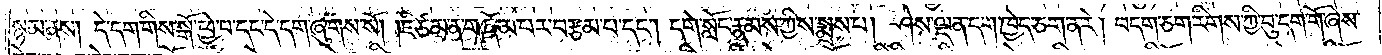སྙམ་ནས། དེ་དག་གིས་སྒོ་ཕྱེ་བ་དང་དེ་དག་ཞུགས་སོ། །ཇི་ཙམ་ན་གཞོམ་པར་བརྩམ་པ་དང༌། དགེ་སློང་རྣམས་ཀྱིས་སྨྲས་པ། ཤེས་ལྡན་དག་ཁྱེད་ཅག་ན་རེ། བདག་ཅག་རིགས་ཀྱི་བུ་དག་གོ་ཞེས་
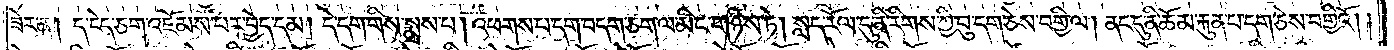ཟེར་ན། ད་ངེད་ཅག་འཇོམས་པར་བྱེད་དམ། དེ་དག་གིས་སྨྲས་པ། འཕགས་པ་དག་བདག་ཅག་ལ་མིང་གཉིས་ཏེ། སླད་རོལ་དུ་ནི་རིགས་ཀྱི་བུ་དག་ཅེས་བགྱི་ལ། ནང་དུ་ནི་ཆོམ་རྐུན་པ་དག་ཅེས་བགྱིའོ། །
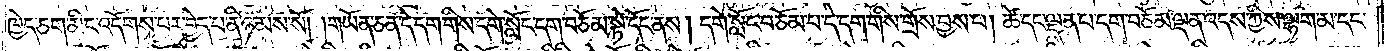ཁྱེད་ཅག་མིང་འདོགས་པར་བྱེད་པ་ནི་ཉམས་སོ། །གཡོན་ཅན་དེ་དག་གིས་དགེ་སློང་དག་བཅོམ་སྟེ་དོང་ནས། དགེ་སློང་བཅོམ་པ་དེ་དག་གིས་གྲོས་བྱས་པ། ཚེ་དང་ལྡན་པ་དག་བཅོམ་ལྡན་འདས་ཀྱིས་ལྷག་མ་དང་
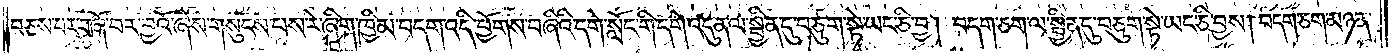བཅས་པར་བཞོ་བར་བྱའོ་ཞེས་གསུངས་པས་རེ་ཞིག་ཁྱིམ་བདག་འདི་ཕྱོགས་བཞིའི་དགེ་སློང་གི་དགེ་འདུན་ལ་སྦྱིན་དུ་བཅུག་སྟེ་ཡང་ཅི་བྱ། བདག་ཅག་ལ་སྦྱིན་དུ་བཅུག་སྟེ་ཡང་ཅི་བྱས། བདག་ཅག་མཉན་
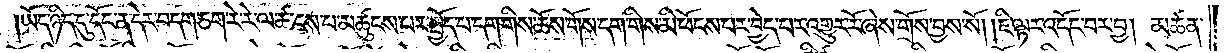ཡོད་ཉིད་དུ་དོང་ན་དེར་བདག་ཅག་རེ་རེ་ལ་ཚངས་པ་མཚུངས་པར་སྤྱོད་པ་དག་གིས་ཆོས་གོས་དག་གིས་མི་ཕོངས་པར་བྱེད་པར་འགྱུར་རོ་ཞེས་གྲོས་བྱས་སོ། །ཇི་ལྟར་འདོང་བར་བྱ། མཚན་
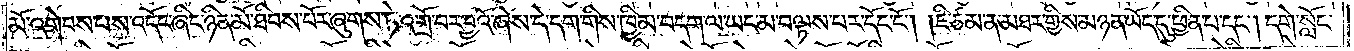མོ་འགེབས་པས་འདོང་ཞིང་ཉིན་མོ་ཐིབས་པོར་ཞུགས་ཏེ་འགྲོ་བར་བྱའོ་ཞེས་དེ་དག་གིས་ཁྱིམ་བདག་ལ་ཡང་མ་བལྟས་པར་དོང་ངོ༌། །ཇི་ཙམ་ན་མཐར་གྱིས་མཉན་ཡོད་དུ་ཕྱིན་པ་དང༌། དགེ་སློང་
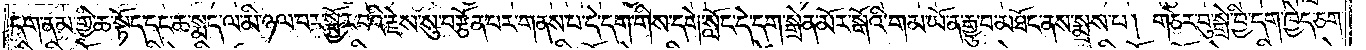དག་ནམ་གྱི་ཆ་སྟོད་དང་ཆ་སྨད་ལ་མི་ཉལ་བར་སྦྱོར་བའི་རྗེས་སུ་བརྩོན་པར་གནས་པ་དེ་དག་གིས་དགེ་སློང་དེ་དག་སྒྲེན་མོར་སྒོའི་གམ་ཡོ་ན་རྒྱུ་བ་མཐོང་ནས་སྨྲས་པ། གཅེར་བུ་སྒྲེ་བྱི་དག་ཁྱེད་ཅག་
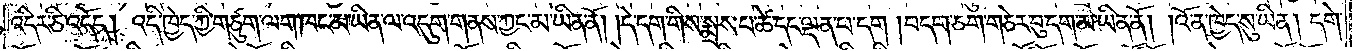འདིར་ཅི་འདོད། འདི་ཁྱེད་ཀྱི་གཙུག་ལག་ཁང་མ་ཡིན་ལ་འདུག་གནས་ཀྱང་མ་ཡིན་ནོ། །དེ་དག་གིས་སྨྲས་པ་ཚེ་དང་ལྡན་པ་དག། བདག་ཅག་གཅེར་བུ་དག་མ་ཡིན་ནོ། །འོ་ན་ཁྱེད་སུ་ཡིན། དགེ་
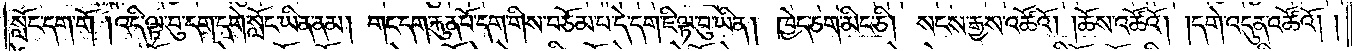སློང་དག་གོ །འདི་ལྟ་བུ་དག་དགེ་སློང་ཡིན་ནམ། གང་དག་རྐུན་པོ་དག་གིས་བཅོམ་པ་དེ་དག་ཇི་ལྟ་བུ་ཡིན། ཁྱེད་ཅག་མིང་ཅི། སངས་རྒྱས་འཚོའོ། །ཆོས་འཚོའོ། །དགེ་འདུན་འཚོའོ། །
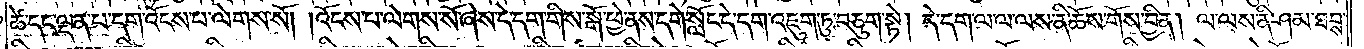ཚེ་དང་ལྡན་པ་དག་འོངས་པ་ལེགས་སོ། །འོངས་པ་ལེགས་སོ་ཞེས་དེ་དག་གིས་སྒོ་ཕྱེ་ནས་དགེ་སློང་དེ་དག་འཇུག་ཏུ་བཅུག་སྟེ། དེ་དག་ལ་ལ་ལས་ནི་ཆོས་གོས་བྱིན། ལ་ལས་ནི་ཤམ་ཐབས་
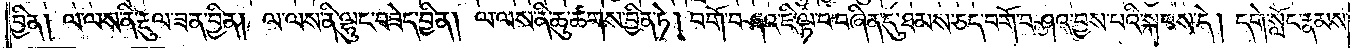བྱིན། ལ་ལས་ནི་རྔུལ་ཟན་བྱིན། ལ་ལས་ནི་ལྷུང་བཟེད་བྱིན། ལ་ལས་ནི་ཆུ་ཚགས་བྱིན་ཏེ། བགོ་བཤའ་ཇི་ལྟ་བ་བཞིན་དུ་ཐམས་ཅད་བགོ་བཤའ་བྱས་པའི་སྐབས་དེ། དགེ་སློང་རྣམས་
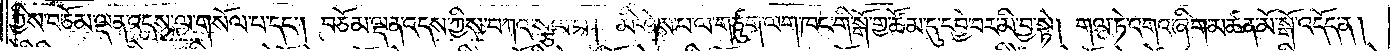ཀྱིས་བཅོམ་ལྡན་འདས་ལ་གསོལ་པ་དང༌། བཅོམ་ལྡན་འདས་ཀྱིས་བཀའ་སྩལ་པ། མི་ཤེས་པ་ལ་གཙུག་ལག་ཁང་གི་སྒོ་གྱ་ཚོམ་དུ་དབྱེ་བར་མི་བྱ་སྟེ། གལ་ཏེ་འགའ་ཞིག་མཚན་མོ་སྒོ་འདོད་ན།
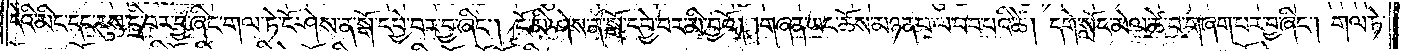དེའི་མིང་དང་རུས་དྲི་བར་བྱ་ཞིང་གལ་ཏེ་ངོ་ཤེས་ན་སྒོ་དབྱེ་བར་བྱ་ཞིང༌། ངོ་མི་ཤེས་ན་སྒོ་དབྱེ་བར་མི་བྱའོ། །གཞན་ཡང་ཆོས་མཉན་པ་ལ་བབ་པའི་ཚེ། དགེ་སློང་མེལ་ཚེ་བ་གཞག་པར་བྱ་ཞིང༌། གལ་ཏེ་
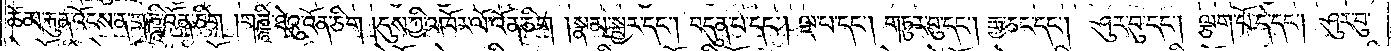ཆོམ་རྐུན་འོངས་ན་གཎྜཱི་འོན་ཅིག །གཎྜཱི་ཐེའུ་འོན་ཅིག །དུས་ཀྱི་འཁོར་ལོ་འོན་ཅིག །སྣམ་སྦྱར་དང༌། བདུན་པ་དང༌། ལྔ་པ་དང༌། གཏུར་བུ་དང༌། རྒྱ་ཅང་དང༌། ཤུར་བུ་དང༌། ལྕག་པོ་དེ་དང༌། ཤུར་བུ་
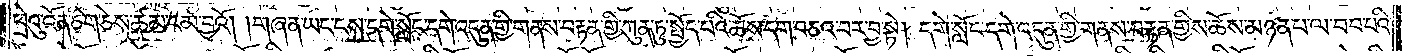ཕྲེའུ་འོན་ཅིག་ཅེས་ཚམ་ངམ་བྱའོ། །གཞན་ཡང་ངས་དགེ་སློང་དགེ་འདུན་གྱི་གནས་བརྟན་གྱི་ཀུན་ཏུ་སྤྱོད་པའི་ཆོས་དག་བཅའ་བར་བྱ་སྟེ། དགེ་སློང་དགེ་འདུན་གྱི་གནས་བརྟན་གྱིས་ཆོས་མཉན་པ་ལ་བབ་པའི་
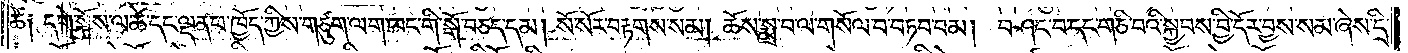ཚེ། དགེ་སྐོས་ལ་ཚེ་དང་ལྡན་པ་ཁྱོད་ཀྱིས་གཙུག་ལག་ཁང་གི་སྒོ་བཅད་དམ། སོ་སོར་བརྟགས་སམ། ཆོས་སྨྲ་བ་ལ་གསོལ་བ་བཏབ་བམ། བཤང་བ་དང་གཅི་བའི་སྐྱབས་བྱི་དོར་བྱས་སམ་ཞེས་དྲི་
